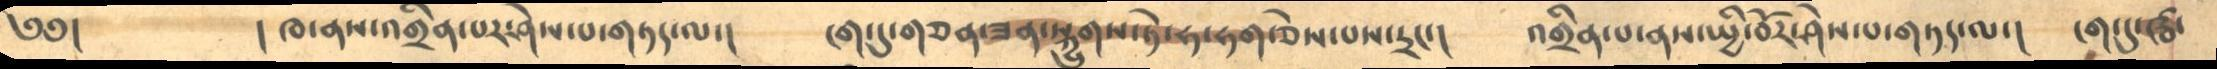༄༅།       ། ཁ་ནས་འགྲིན་པར་ཤེས་པ་གཏད་ལ་།     ངག་དུ་གཅན་ཟན་སྐྱུགས་ཏེ་ཧ་ཧག་ཅེས་པས་དྲང་།     འགྲིན་པ་ནས་སྤྱི་བོར་ཤེས་པ་གཏད་ལ་།    ངག་དུ་ཝི་
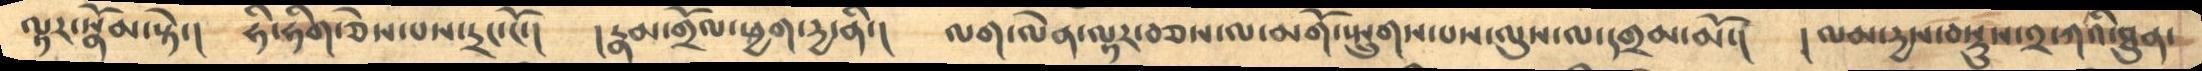ལྟར་སྣོམ་སྟེ་།     ཧི་ཧིག་ཅེས་པས་དྲང་ངོ་།     །རྣམ་གྲོལ་ཕྱག་དྱ་ནི་།     ལག་ལེན་ལྟར་བཅས་ལ་མགོ་སྤྲུགས་པས་ལུས་ལ་དགྲམ་མོ་།     །ལམ་དྱས་བསྡུས་༢་ཀའི་ཐུན་
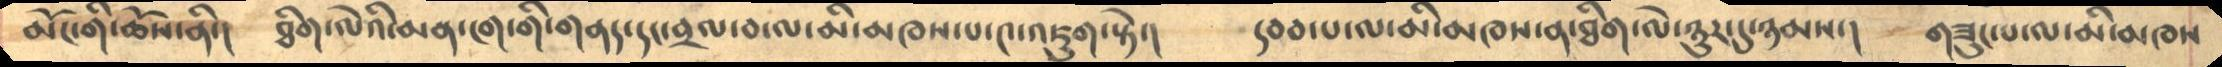མོང་གི་ཆོས་ནི་།    ཐིག་ལེའི་མན་ངག་གི་གནད་དང་བྲལ་བ་ལ་མི་མཁས་པ་༤་འཇུག་སྟེ་།        དབབ་པ་ལ་མི་མཁས་ན་ཐིག་ལེ་ཉུར་དུ་ཉམས་།    གཟུང་པ་ལ་མི་མཁས
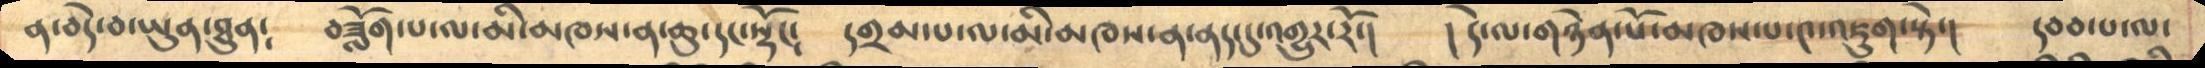ན་བདེ་བ་ཡུན་ཐུན༴     བཟློག་པ་ལ་མི་མཁས་ན་ཆུ་དང་སྡོང༴     དགྲམ་པ་ལ་མི་མཁས་ན་ནད་དུ་འགྱུར་རོ་།     །དེ་ལ་གཉེན་པོ་མཁས་པ་༤་འཇུག་སྟེ་།     དབབ་པ་ལ་
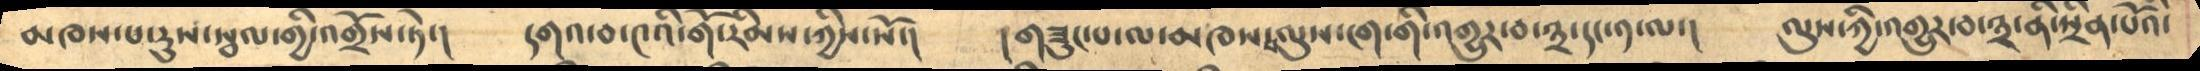མཁས་པ་རུས་སྦལ་གྱི་འགྲོས་ཏེ་།      དགའ་བ་༤འི་གོ་རིམས་ཀྱིས་སོ་།       །གཟུང་པ་ལ་མཁས་ལུས་ངག་གི་འགྱུར་བ་༣་དང་༡་ལ་།     ལུས་ཀྱི་འགྱུར་བ་༣་ནི་སྲིན་པོའི་
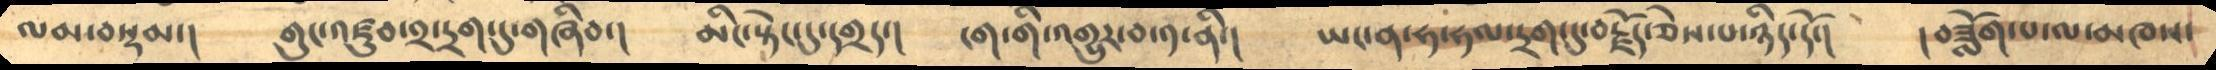ལམ་བསྡམ་།      གུང་འཛུབ་༢་དྲག་དུ་གཞིབ་།      མིང་སྟེང་དུ་དགྲད་།      ངག་གི་འགྱུར་བ་༡་ནི་།     ཡང་ན་ཧ་ཧལ་དྲག་དུ་བརྗོད་ཅེས་པ་ཉིད་དོ་།      །བཟློས་པ་ལ་མཁས་
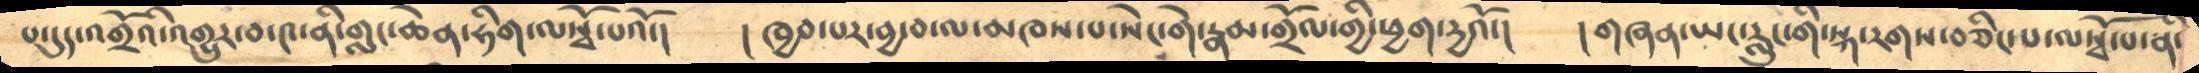པ་དུད་འགྲོའི་འགྱུར་བ་༤་ནི་གླང་ཆེན་ཧིག་ལསྭོ་པའོ་།      །ཁྱབ་པར་བྱ་བ་ལ་མཁས་པ་སེང་གེ་རྣམ་གྲོལ་གྱི་ཕྱག་དྱའོ་།     །གཞན་ཡང་རླུང་གི་སྐ་རགས་བཅིང་པ་ལསྭོ་པ་ནི་
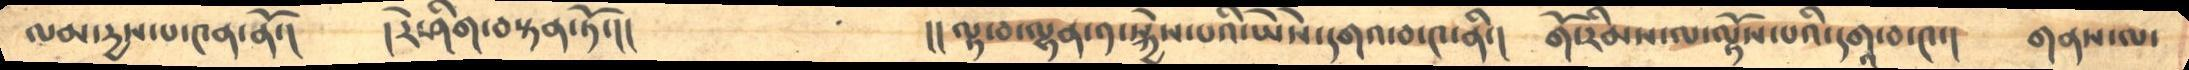ལམ་དྱས་པ་༤ན་ནོ་།    །རེ་ཤིག་བསྟན་ཏོ་།།       །།ལྟ་བ་ལྷན་༡་སྐྱེས་པའི་ཡཻས་དགའ་བ་༤་ནི་།     གོ་རིམས་ལ་ལྟོས་པའི་དག་བ་༤་།    གནས་ལ་
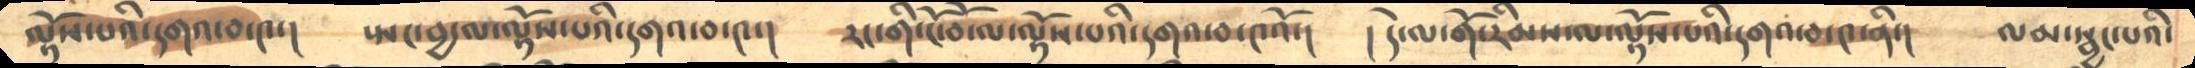ལྟོས་པའི་དགའ་བ་༤་།     སྤང་བྱ་ལ་ལྟོས་པའི་དགའ་བ་༤་།      རང་གི་ངོ་བོ་ལ་ལྟོས་པའི་དགའ་བ་༤འོ་།     །དེ་ལ་གོ་རིམས་ལ་ལྟོས་པའི་དགའ་བ་༤་ནི་།       ལམ་སྦྱང་པའི་
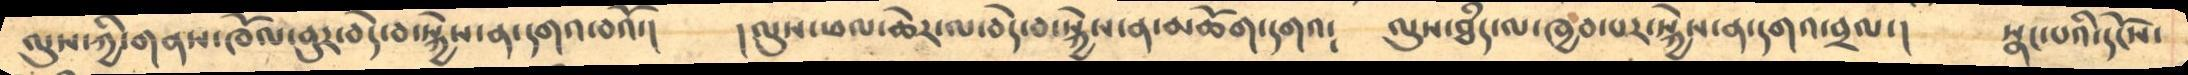ལུས་ཀྱི་གནས་ཁོལ་བུར་བདེ་བ་སྐྱེས་ན་དགའ་བའོ་།      །ལུས་ཕལ་ཆེར་ལ་བདེ་བ་སྐྱེས་ན་མཆོག་དགའ༴     ལུས་ཐཾད་ལ་ཁྱབ་པར་སྐྱེས་ན་དགའ་བྲལ་།      སྣང་པའི་དངོས་
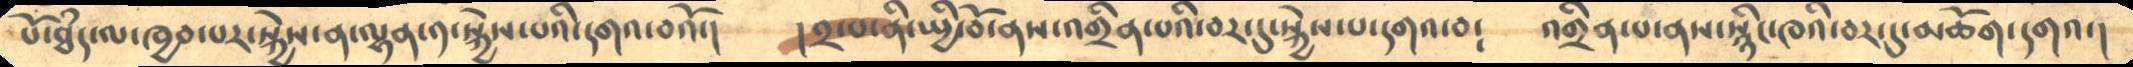པོ་ཐཾད་ལ་ཁྱབ་པར་སྐྱེས་ན་ལྷན་༡་སྐྱེས་པའི་དགའ་བའོ་།      །༢་པ་ནི་སྤྱི་བོ་ནས་འགྲིན་པའི་བར་དུ་སྐྱེས་པ་དགའ་བ༴     འགྲིན་པ་ནས་སྙིང་ཁའི་བར་དུ་མཆོག་དགའ་།
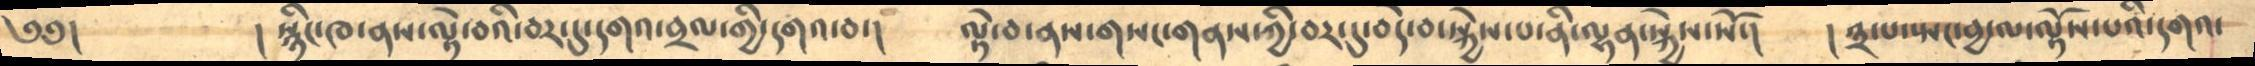༄༅།      །སྙིང་ཁ་ནས་ལྟེ་བའི་བར་དུ་དགའ་བྲལ་གྱི་དགའ་བ་།    ལྟེ་བ་ནས་གསང་གནས་ཀྱི་བར་དུ་བདེ་བ་སྐྱེས་པ་ནི་ལྷན་སྐྱེས་སོ་།    །༣་པ་སྤང་བྱ་ལ་ལྟོས་པའི་དགའ་
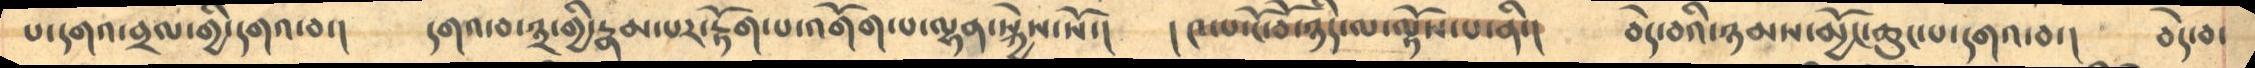པ་དགའ་བྲལ་གྱི་དགའ་བ་།     དགའ་བ་༣་གྱི་རྣམ་པར་རྟོག་པ་འགོག་པ་ལྷན་སྐྱེས་སོ་།     །༤་པ་ངོ་བོ་ཉིད་ལ་ལྟོས་པ་ནི་།    བདེ་བའི་ཉམས་མྱོང་ཆུང་པ་དགའ་བ་།    བདེ་བ་
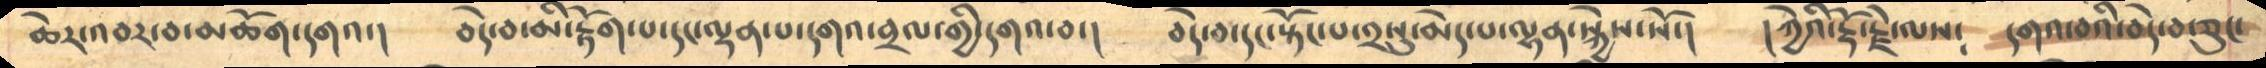ཆེར་འབར་བ་མཆོག་དགའ་།        བདེ་བ་མི་རྟོག་པ་དང་ལྡན་པ་དགའ་བྲལ་གྱི་དགའ་བ་།      བདེ་བ་དང་སྟོང་པ་༢སུ་མེད་པ་ལྷན་སྐྱེས་སོ་།     །ཀྱེའི་རྡོ་རྗེ་ལས༴      དགའ་བའི་བདེ་བ་ཅུང་
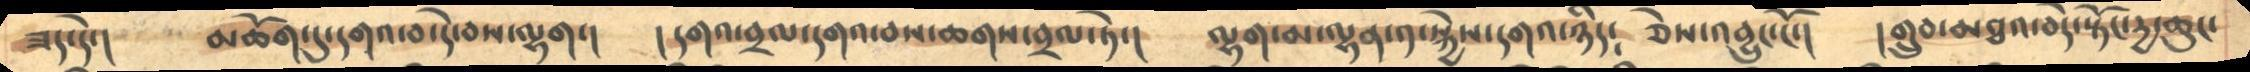ཟད་དེ་།       མཆོག་དུ་དགའ་བ་དེ་བས་ལྷག་།     །དགའ་བྲལ་དགའ་བས་ཆགས་བྲལ་ཏེ་།    ལྷག་མ་ལྷན་༡་སྐྱེས་དགའ་ཉིད༴  ཅེས་འབྱུང་ངོ་།     །གྲུབ་མཐའ་བདེ་སྟོང་དྱ་ཆུང་
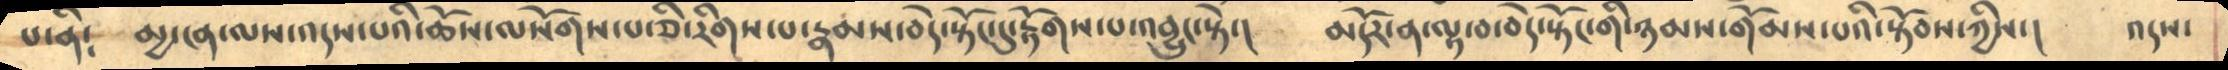པ་ནི༴      མྱ་ངན་ལས་འདས་པའི་ཆོས་ལསོགས་པ་ཅི་རིགས་པ་རྣམས་བེ་སྟོང་དུ་རྟོགས་པ་འབྱུང་སྟེ་།     མདོར་ན་ལྟ་བ་བདེ་སྟོང་གི་ཉམས་གོམས་པའི་སྟོབས་ཀྱིས་།    འདས་
